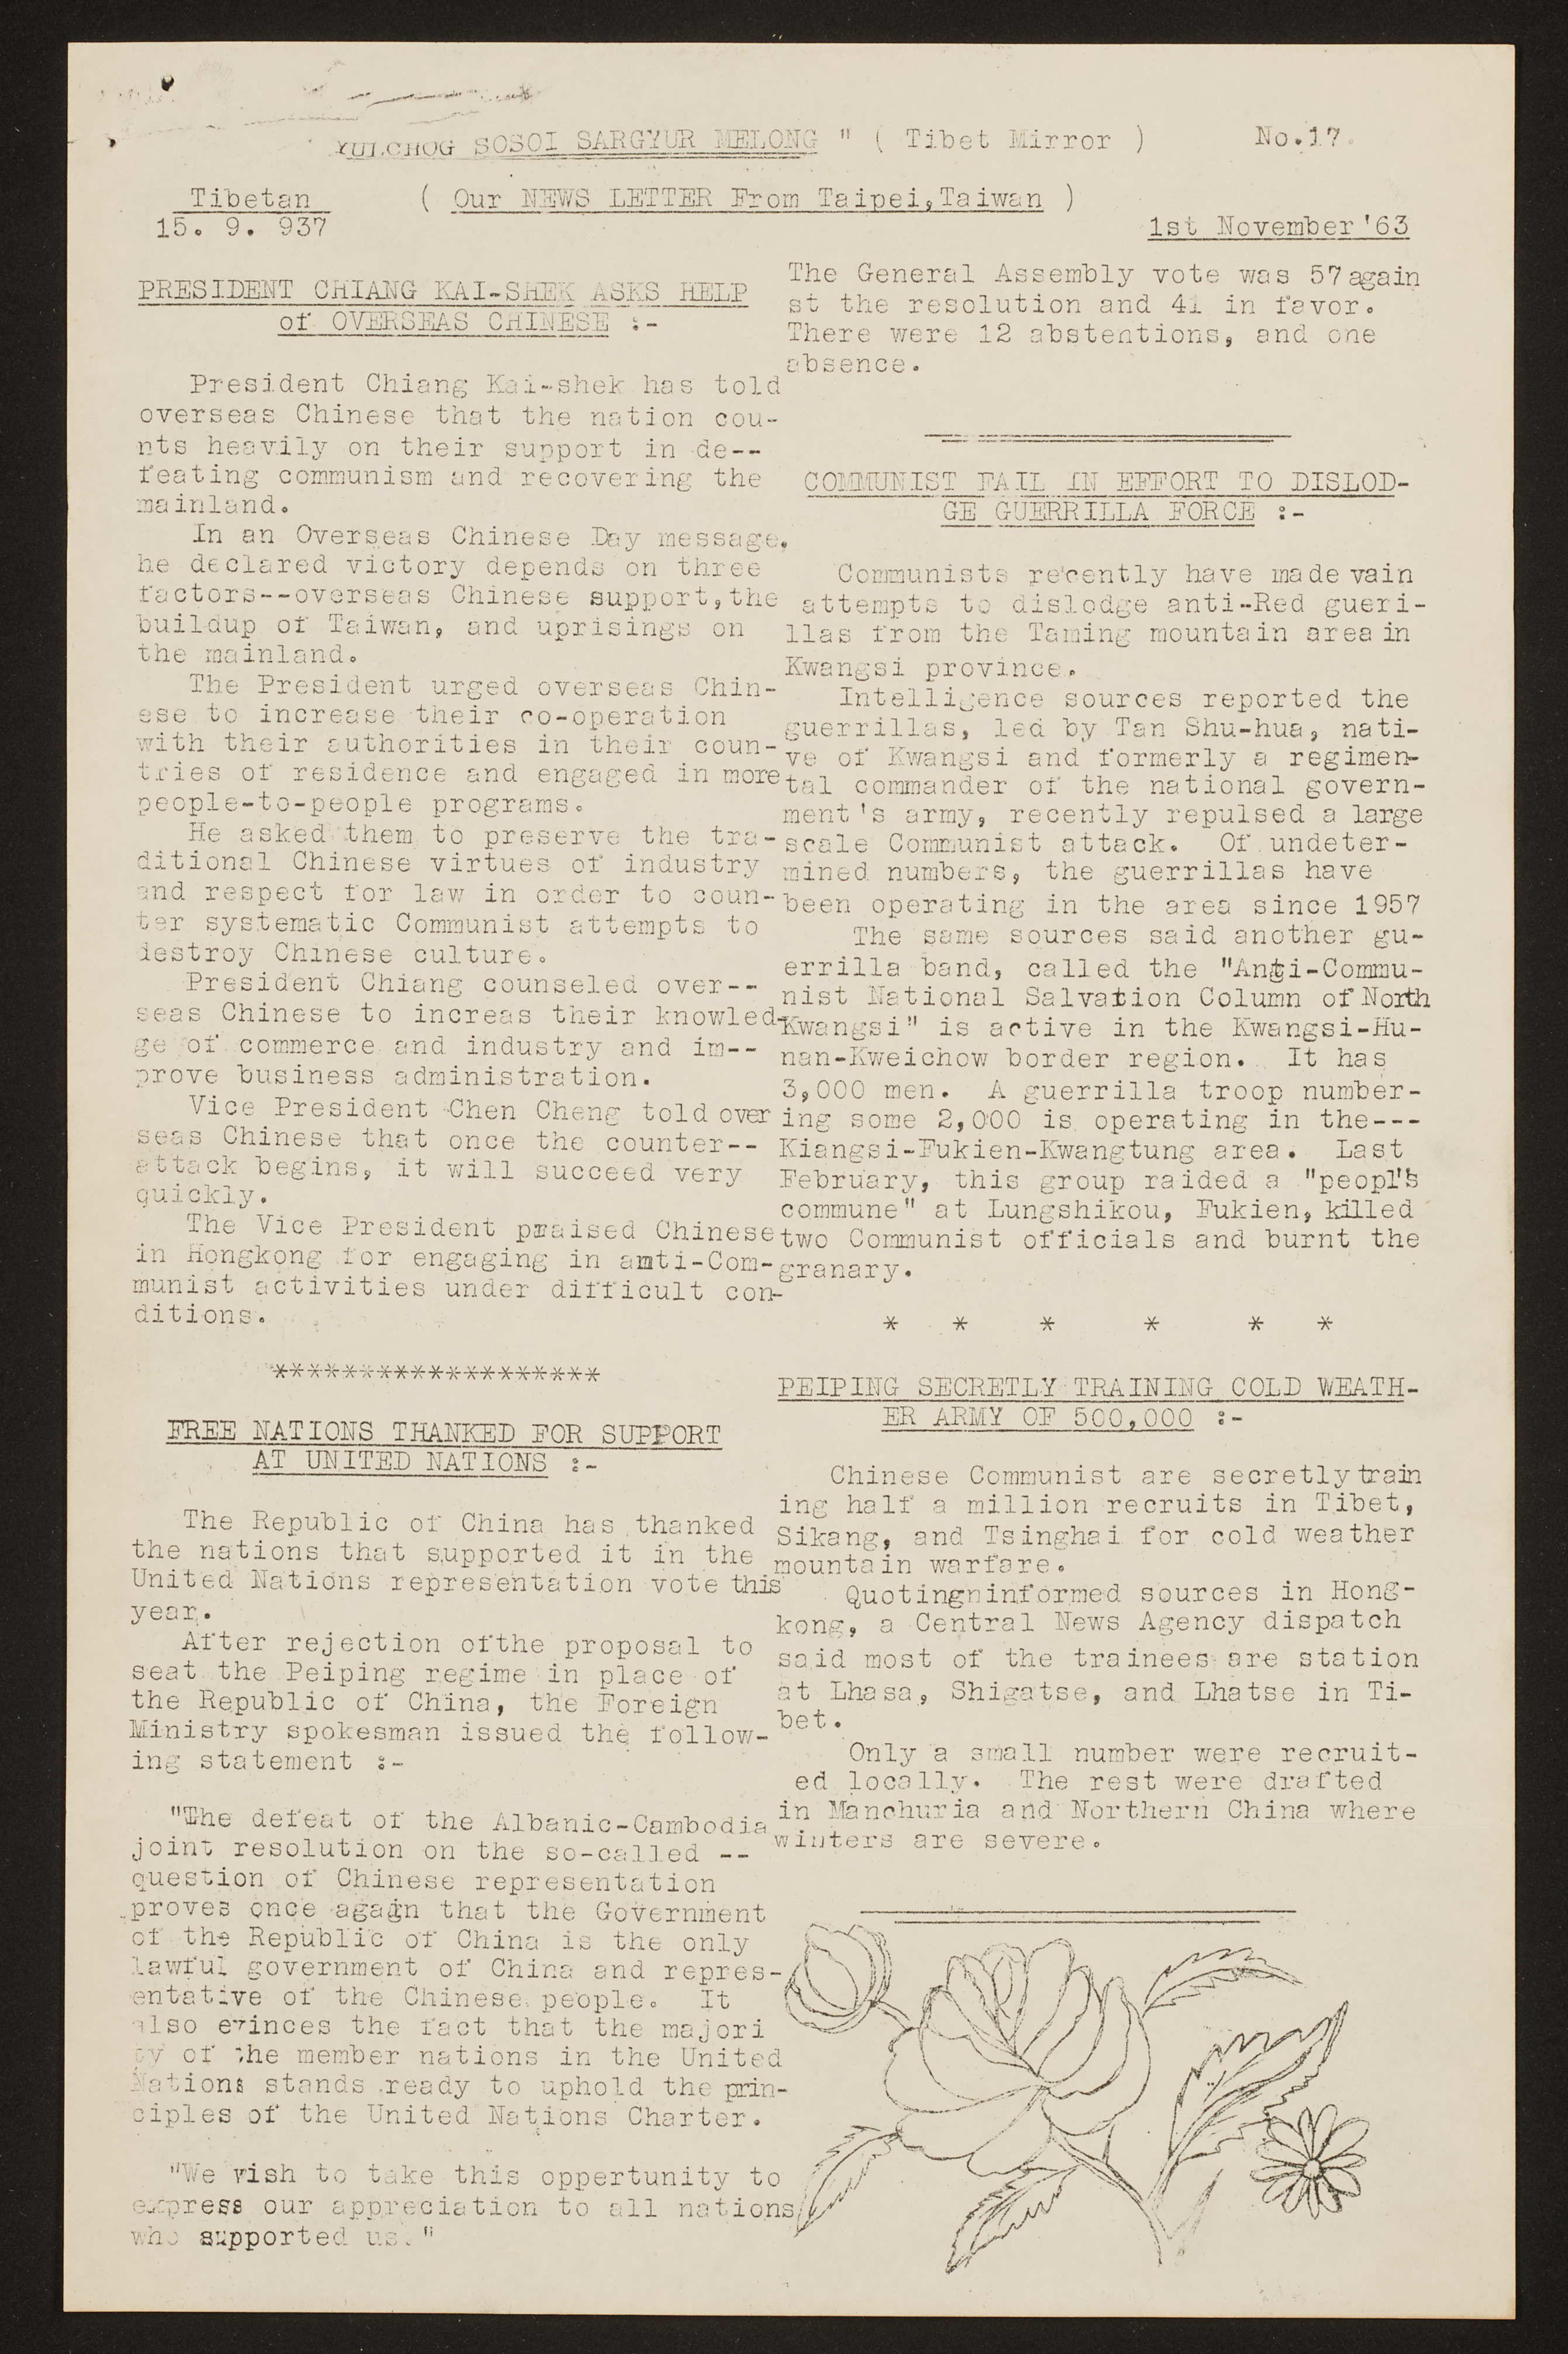YULCHOG SOSOI SARGYUR MELONG " ( Tibet Mirror )
Tibetan
15.9. 937
( Our NEWS LETTER From Taipei, Taiwan )
No.17
1st November '63
PRESIDENT CHIANG KAI-SHET ASKS HELP
of OVERSEAS CHINESE :-
President Chiang Kai-shek has told
overseas Chinese that the nation cou-
nts heavily on their support in de--
feating communism and recovering the
mainland.
The General assembly vote was 57 again
st the resolution and 41 in favor
There were is abstentions, and one
absence.
COMMUNIST FAIL IN EFFORT TO DISLOD-
GE GUERRILLA FORCE :-
In an Overseas Chinese Day message
he declared victory depends on three
factors --overseas Chinese support, the
buildup of Taiwan, and uprisings on
the mainland.
Communists recently have made vain
attempts to dislodge anti-Red gueri-
llas from the Taming mountain area in
Kwangsi province.
The President urged overseas Chin-
ese to increase their co-operation
with their authorities in the count
tries of residence and engaged in more
people-to-people programs.
Intelligence sources reported the
guerrillas, led by Tan Shu-hua, nati-
ve of Kwangsi and formerly a regimen-
tal commander of the national govern-
ment's army, recently repulsed a large
scale Communist attack. Of undeter-
mined numbers, the guerrels have
been operating in the are since 1957
The same sources said another gu-
errilla band, called the "Anti-Commu¬
nist National Salvation Column of North
Kwangsi" is active in the Kwangsi-Hu
nan-Kweichow border region. It has
3,000 men. A guerrilla troop number-
ing some 2,000 is operating in the
Kiangsi-Fukien-Kwangtung area. Last
February, this group raided a "peopl's
commune at Lungshikou, Fukien, killed
two Communist officials and burnt the
granary.
He asked them to preserve the tra-
ditional Chinese virtues of industry
and respect for law in order to coun-
ter systematic Communist attempts to
destroy Chinese culture.
President Chiang counseled over--
seas Chinese to increas their knowled
ge of commerce and industry and im--
prove business administration.
Vice President Chen Cheng told over
seas Chinese that once the counter--
attack begins, it will succeed very
quickly
The Vice President praised Chinese
in Hongkong for engaging in anti-Com-
munist activities under difficult con-
ditions.
FREE NATIONS THANKED FOR SUPPORT
AT UNITED NATIONS -
The Republic of China has thanked
the nations that supported it in the
United Nations representation vote this
year.
After rejection ofthe proposal to
seat the Peiping regime in place of
the Republic of China, the Foreign
Ministry spokesman issued the follow¬
ing statement:
PEIPING SECRETLY TRAINING COLD WEATH
ER ARMY OF 500,000:
Chinese Communist are secretly train
ing half a million recruits in Tibet,
Sikang, and Tsinghai for cold weather
mountain warfare.
Quotingninformed sources in Hong-
kong, a Central News Agency dispatch
said most of the trainees are station
at Lhasa, Shigatse, and Lhatse in Ti-
bet.
Only a small number were recruit-
ed locally. The rest were drafted
in Manchuria and Northern China where
winters are severe.
"The defeat of the Albanic-Cambodia
joint resolution on the so-called --
question of Chinese representation
proves once again that the Government
of the Republic of China is the only
lawful government of China and repres-
entative of the Chinese people. It
also evinces the fact that the majori
ty of the member nations in the United
Nations stands ready to uphold the prin-
ciples of the United Nations Charter.
"We wish to take this oppertunity to
express our appreciation to all nations
who supported us."
